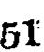51
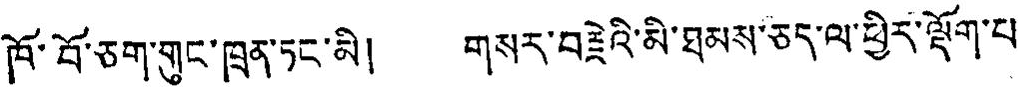ཁོ་བོ་ཅག་གུང་ཁྲན་ཏང་མི། གསར་བརྗེའི་མི་ཐམས་ཅད་ལ་ཕྱིར་ལྡོག་པ་
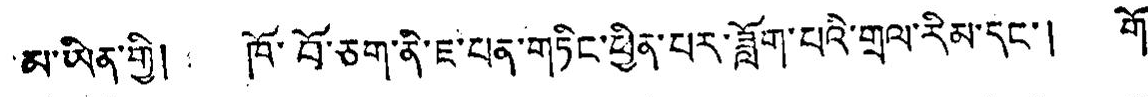མ་ཡིན་གྱི། ཁོ་བོ་ཅག་ནི་ཇ་པན་གཏིང་ཕྱིན་པར་ཟློག་པའི་གྲལ་རིམ་དང་། གོ་
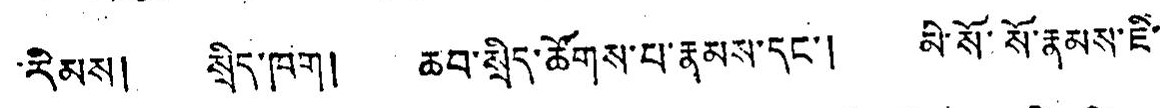རིམས། སྲིད་ཁག། ཆབ་སྲིད་ཚོགས་པ་རྣམས་དང་། མི་སོ་སོ་རྣམས་ཇི་
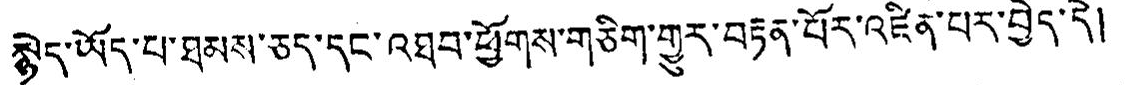སྙེད་ཡོད་པ་ཐམས་ཅད་དང་འཐབ་ཕྱོགས་གཅིག་གྱུར་བརྟན་པོར་འཛིན་པར་བྱེད་དེ།
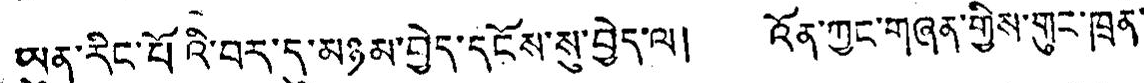ཡུན་རིང་པོའི་བར་དུ་མཉམ་བྱེད་དངོས་སུ་བྱེད་ལ། འོན་ཀྱང་གཞན་གྱིས་གུང་ཁྲན་
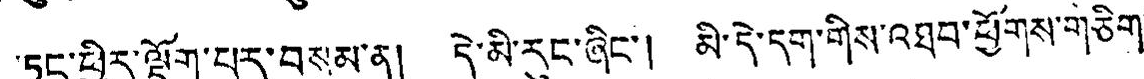ཏང་ཕྱིར་ལྡོག་པར་བསམ་ན། དེ་མི་རུང་ཞིང་། མི་དེ་དག་གིས་འཐབ་ཕྱོགས་གཅིག་
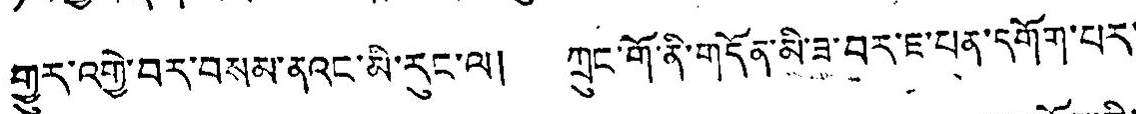གྱུར་འགྱི་བར་བསམ་ནའང་མི་རུང་ལ། ཀྲུང་གོ་ནི་གདོན་མི་ཟ་བར་ཇ་པན་དགོག་པར་
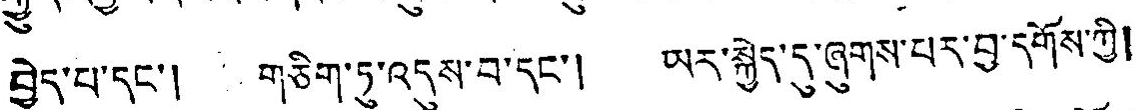བྱེད་པ་དང་། གཅིག་ཏུ་འདུས་བ་དང་། ཡར་སྐྱེད་དུ་ཞུགས་པར་བྱ་དགོས་ཀྱི།
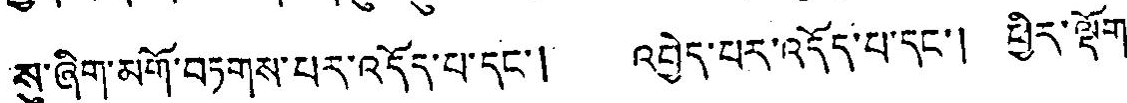སུ་ཞིག་མགོ་བཏགས་པར་འདོད་པ་དང་། འབྱེད་པར་འདོད་པ་དང་། ཕྱིར་ལྡོག་
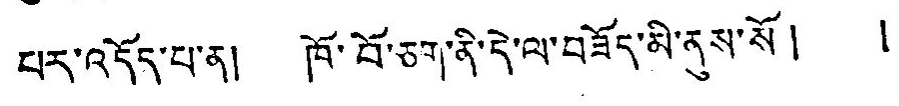པར་འདོད་པ་ན། ཁོ་བོ་ཅག་ནི་དེ་ལ་བཟོད་མི་ནུས་སོ། །
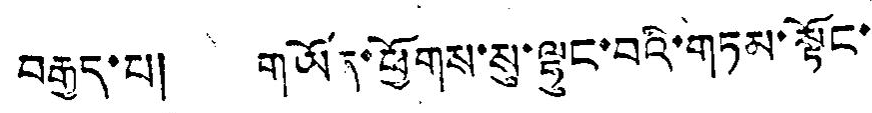བརྒྱད་པ། གཡོན་ཕྱོགས་སུ་ལྟུང་བའི་གཏམ་སྟོང་
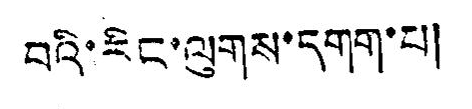བའི་རིང་ལུགས་དགག་པ།
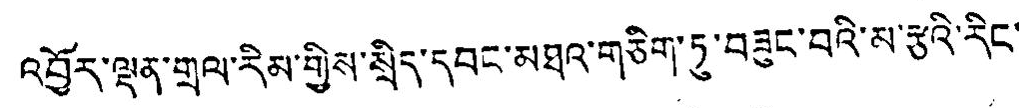འབྱོར་ལྡན་གྲལ་རིམ་གྱིས་སྲིད་དབང་མཐའ་གཅིག་ཏུ་བཟུང་བའི་མ་རྩའི་རིང་
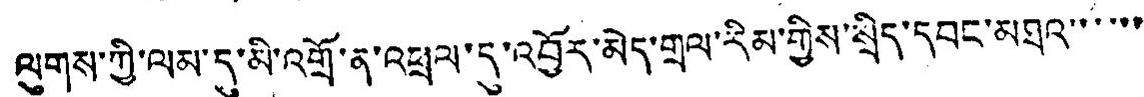ལུགས་ཀྱི་ལམ་དུ་མི་འགྲོ་ན་འཕྲལ་དུ་འབྱོར་མེད་གྲལ་རིམ་གྱིས་སྲིད་དབང་མཐའ་་་་་་
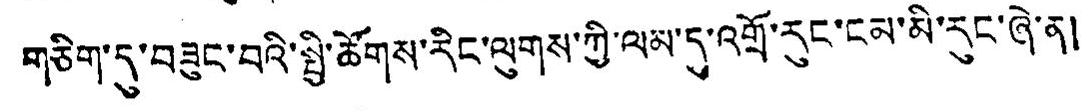གཅིག་དུ་བཟུང་བའི་སྤྱི་ཚོགས་རིང་ལུགས་ཀྱི་ལམ་དུ་འགྲོ་རུང་ངམ་མི་རུང་ཞེ་ན། །
